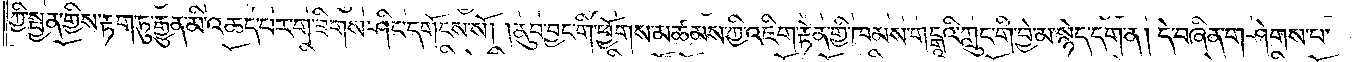ཀྱི་སྤྱན་གྱིས་རྟག་ཏུ་རྒྱུན་མི་འཆད་པར་གཟིགས་ཤིང་དགོངས་སོ། །ནུབ་བྱང་གི་ཕྱོགས་མཚམས་ཀྱི་འཇིག་རྟེན་གྱི་ཁམས་གངྒཱའི་ཀླུང་གི་བྱེ་མ་སྙེད་དག་ན། དེ་བཞིན་གཤེགས་པ་
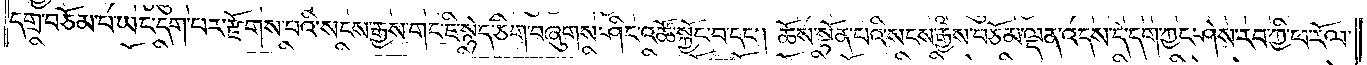དགྲ་བཅོམ་པ་ཡང་དག་པར་རྫོགས་པའི་སངས་རྒྱས་གང་ཇི་སྙེད་ཅིག་བཞུགས་ཤིང་འཚོ་སྐྱོང་བ་དང༌། ཆོས་སྟོན་པའི་སངས་རྒྱས་བཅོམ་ལྡན་འདས་དེ་དག་ཀྱང་ཤེས་རབ་ཀྱི་ཕ་རོལ་
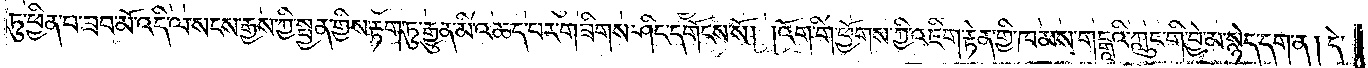ཏུ་ཕྱིན་པ་ཟབ་མོ་འདི་ལ་སངས་རྒྱས་ཀྱི་སྤྱན་གྱིས་རྟག་ཏུ་རྒྱུན་མི་འཆད་པར་གཟིགས་ཤིང་དགོངས་སོ། །འོག་གི་ཕྱོགས་ཀྱི་འཇིག་རྟེན་གྱི་ཁམས་གངྒཱའི་ཀླུང་གི་བྱེ་མ་སྙེད་དག་ན། དེ་
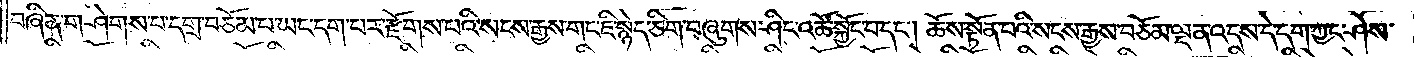བཞིན་གཤེགས་པ་དགྲ་བཅོམ་པ་ཡང་དག་པར་རྫོགས་པའི་སངས་རྒྱས་གང་ཇི་སྙེད་ཅིག་བཞུགས་ཤིང་འཚོ་སྐྱོང་བ་དང༌། ཆོས་སྟོན་པའི་སངས་རྒྱས་བཅོམ་ལྡན་འདས་དེ་དག་ཀྱང་ཤེས་
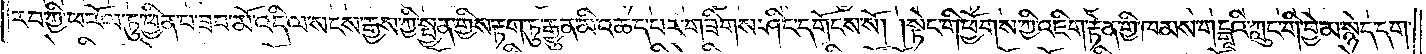རབ་ཀྱི་ཕ་རོལ་ཏུ་ཕྱིན་པ་ཟབ་མོ་འདི་ལ་སངས་རྒྱས་ཀྱི་སྤྱན་གྱིས་རྟག་ཏུ་རྒྱུན་མི་འཆད་པར་གཟིགས་ཤིང་དགོངས་སོ། །སྟེང་གི་ཕྱོགས་ཀྱི་འཇིག་རྟེན་གྱི་ཁམས་གངྒཱའི་ཀླུང་གི་བྱེ་མ་སྙེད་དག་
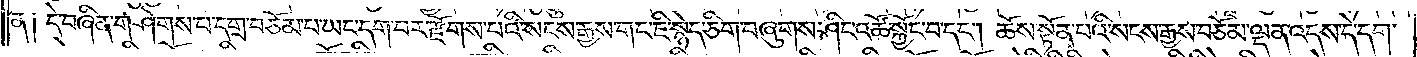ན༑ དེ་བཞིན་གཤེགས་པ་དགྲ་བཅོམ་པ་ཡང་དག་པར་རྫོགས་པའི་སངས་རྒྱས་གང་ཇི་སྙེད་ཅིག་བཞུགས་ཤིང་འཚོ་སྐྱོང་བ་དང༌། ཆོས་སྟོན་པའི་སངས་རྒྱས་བཅོམ་ལྡན་འདས་དེ་དག་
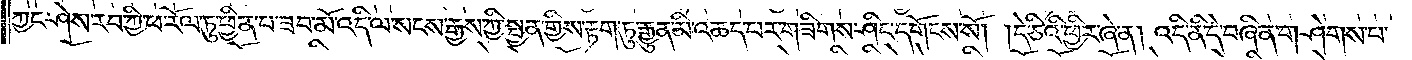ཀྱང་ཤེས་རབ་ཀྱི་ཕ་རོལ་ཏུ་ཕྱིན་པ་ཟབ་མོ་འདི་ལ་སངས་རྒྱས་ཀྱི་སྤྱན་གྱིས་རྟག་ཏུ་རྒྱུན་མི་འཆད་པར་གཟིགས་ཤིང་དགོངས་སོ། །དེ་ཅིའི་ཕྱིར་ཞེ་ན། འདི་ནི་དེ་བཞིན་གཤེགས་པ་
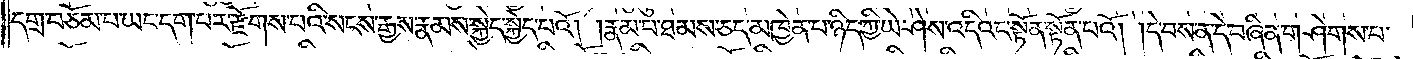དགྲ་བཅོམ་པ་ཡང་དག་པར་རྫོགས་པའི་སངས་རྒྱས་རྣམས་སྐྱེད་སྐྱེད་པའོ། །རྣམ་པ་ཐམས་ཅད་མཁྱེན་པ་ཉིད་ཀྱི་ཡེ་ཤེས་འདིའང་སྟོན་སྟོན་པའོ། །དེ་བས་ན་དེ་བཞིན་གཤེགས་པ་
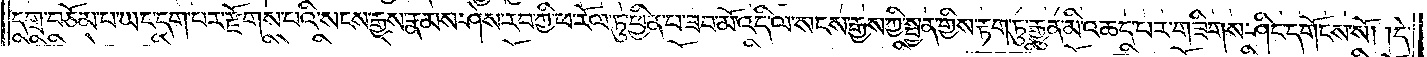དགྲ་བཅོམ་པ་ཡང་དག་པར་རྫོགས་པའི་སངས་རྒྱས་རྣམས་ཤེས་རབ་ཀྱི་ཕ་རོལ་ཏུ་ཕྱིན་པ་ཟབ་མོ་འདི་ལ་སངས་རྒྱས་ཀྱི་སྤྱན་གྱིས་རྟག་ཏུ་རྒྱུན་མི་འཆད་པར་གཟིགས་ཤིང་དགོངས་སོ། །དེ་
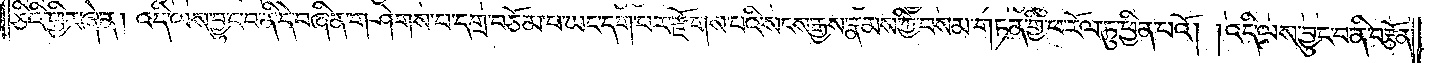ཅིའི་ཕྱིར་ཞེ་ན། འདི་ལས་བྱུང་བ་ནི་དེ་བཞིན་གཤེགས་པ་དགྲ་བཅོམ་པ་ཡང་དག་པར་རྫོགས་པའི་སངས་རྒྱས་རྣམས་ཀྱི་བསམ་གཏན་གྱི་ཕ་རོལ་ཏུ་ཕྱིན་པའོ། །འདི་ལས་བྱུང་བ་ནི་བརྩོན་
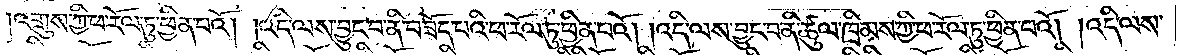འགྲུས་ཀྱི་ཕ་རོལ་ཏུ་ཕྱིན་པའོ། །འདི་ལས་བྱུང་བ་ནི་བཟོད་པའི་ཕ་རོལ་ཏུ་ཕྱིན་པའོ། །འདི་ལས་བྱུང་བ་ནི་ཚུལ་ཁྲིམས་ཀྱི་ཕ་རོལ་ཏུ་ཕྱིན་པའོ། །འདི་ལས་
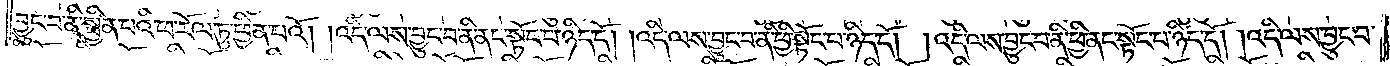བྱུང་བ་ནི་སྤྱིན་པའི་ཕ་རོལ་ཏུ་ཕྱིན་པའོ། །འདི་ལས་བྱུང་བ་ནི་ནང་སྟོང་པ་ཉིད་དོ། །འདི་ལས་བྱུང་བ་ནི་ཕྱི་སྟོང་པ་ཉིད་དོ། །འདི་ལས་བྱུང་བ་ནི་ཕྱི་ནང་སྟོང་པ་ཉིད་དོ། །འདི་ལས་བྱུང་བ་
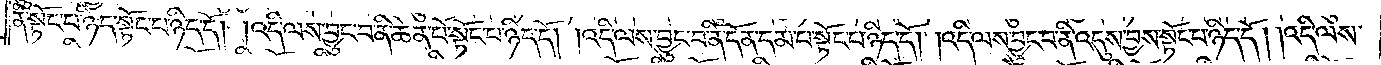ནི་སྟོང་པ་ཉིད་སྟོང་པ་ཉིད་དོ། །འདི་ལས་བྱུང་བ་ནི་ཆེན་པོ་སྟོང་པ་ཉིད་དོ། །འདི་ལས་བྱུང་བ་ནི་དོན་དམ་པ་སྟོང་པ་ཉིད་དོ། །འདི་ལས་བྱུང་བ་ནི་འདུས་བྱས་སྟོང་པ་ཉིད་དོ། །འདི་ལས་
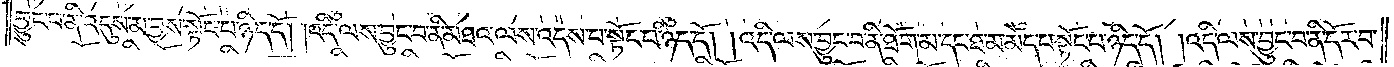བྱུང་བ་ནི་འདུས་མ་བྱས་སྟོང་པ་ཉིད་དོ། །འདི་ལས་བྱུང་བ་ནི་མཐའ་ལས་འདས་པ་སྟོང་པ་ཉིད་དོ། །འདི་ལས་བྱུང་བ་ནི་ཐོག་མ་དང་ཐ་མ་མེད་པ་སྟོང་པ་ཉིད་དོ། །འདི་ལས་བྱུང་བ་ནི་དོར་བ་
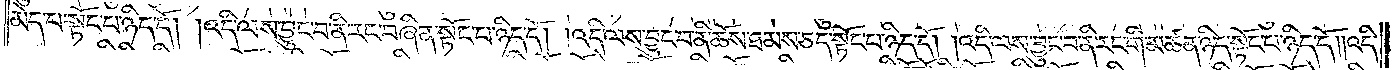མེད་པ་སྟོང་པ་ཉིད་དོ། །འདི་ལས་བྱུང་བ་ནི་རང་བཞིན་སྟོང་པ་ཉིད་དོ། །འདི་ལས་བྱུང་བ་ནི་ཆོས་ཐམས་ཅད་སྟོང་པ་ཉིད་དོ། །འདི་ལས་བྱུང་བ་ནི་རང་གི་མཚན་ཉིད་སྟོང་པ་ཉིད་དོ། །འདི་
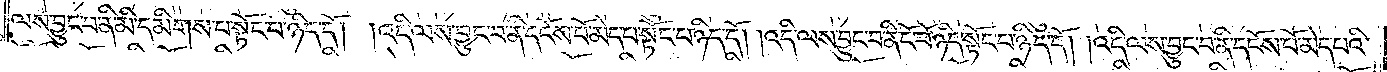ལས་བྱུང་བ་ནི་མི་དམིགས་པ་སྟོང་པ་ཉིད་དོ། །འདི་ལས་བྱུང་བ་ནི་དངོས་པོ་མེད་པ་སྟོང་པ་ཉིད་དོ། །འདི་ལས་བྱུང་བ་ནི་ངོ་བོ་ཉིད་སྟོང་པ་ཉིད་དོ། །འདི་ལས་བྱུང་བ་ནི་དངོས་པོ་མེད་པའི་
